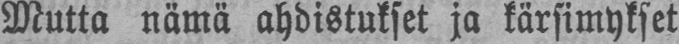Mutta nämä ahdistukset ja kärsimykset
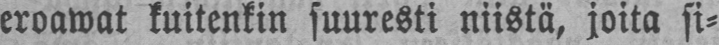eroawat kuitenkin suuresti niistä, joita si-
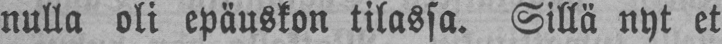nulla oli epäuskon tilassa. Sillä nyt et
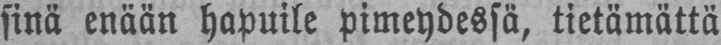sinä enään hapuile pimeydessä, tietämättä
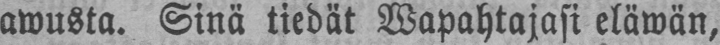awusta. Sinä tiedät Wapahtajasi elämän,
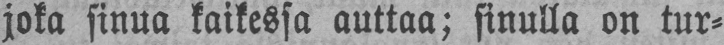joka sinua kaikessa auttaa; sinulla on tur-
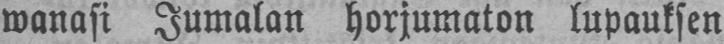wanasi Jumalan horjumaton lupauksen
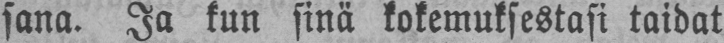sana. Ja kun sinä kokemuksestasi taidat
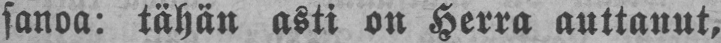sanoa: tähän asti on Herra auttanut,
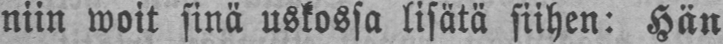niin woit sinä uskossa lisätä siihen: Hän
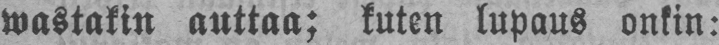wastakin auttaa; kuten lupaus onkin:
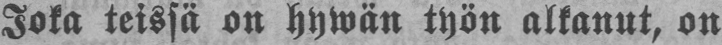Joka teissä on hywän työn alkanut, on
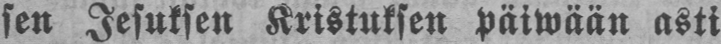sen Jesuksen Kristuksen päiwään asti
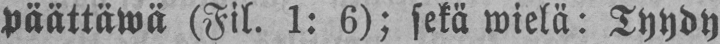päättäwä (Fil. I: 6); sekä mielii: Tyydy
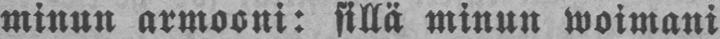minun armooni: sillä minun woimani
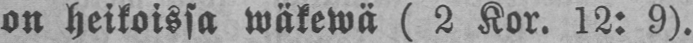on heikoissa wäkewä ( 2 Kor. 12: 9).
